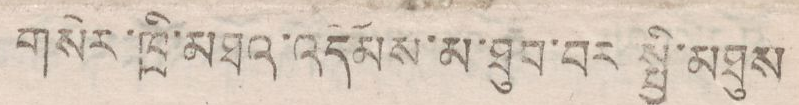གསེར་ཁྲི་མཐའ་འདོམས་མ་ཐུབ་པར སྤྱི་འཐུས
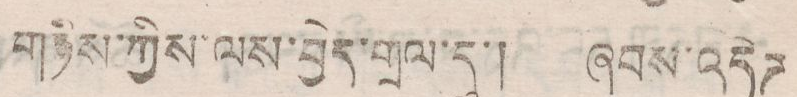གཉིས་ཀྱིས་ལས་བྱེད་གྲལ་དུ་། ཞབས་འདེཌ
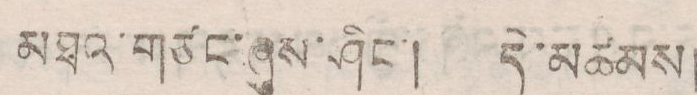མཐའ་གཙང་ཞུས་ཤིང་། དེ་མཚམས།
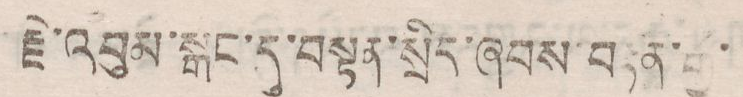རྗེ་འབུམ་སྒང་དུ་བསྟན་སྲིད་ཞབས་བརྟན་རྒྱ་
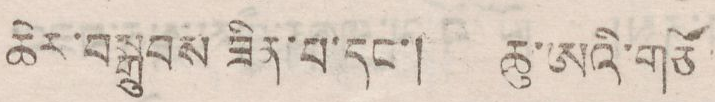ཆེར་བསྒྲུབས ཟིན་པ་དང་། ཆུ་ཨའི་གཙོ
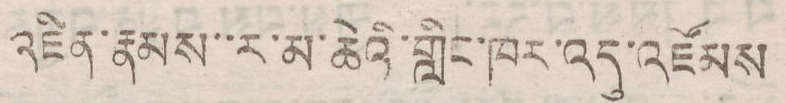འཛིན་རྣམས་་ར་མ་ཆེའི་གླིང་ཁར་འདུ་འཛོམས
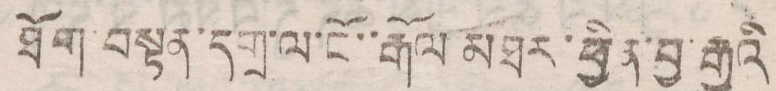ཐོག་བསྟན་དགྲ་ལ་ངོ་་རྒོལ མཐར་ཕྱིན་བྱ་རྒྱུའི
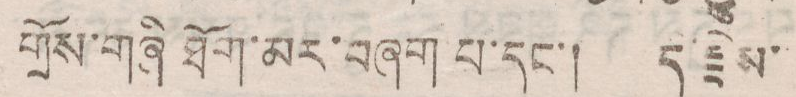གྲོས་གཞི ཐོག་མར་བཞག པ་དང་། ད་རྗེས་
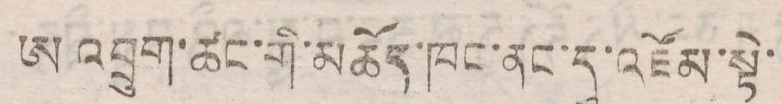ཨ འབྲུག་ཚང་གི་མཆོད་ཁང་ནང་དུ་འཛོམ་སྟེ་
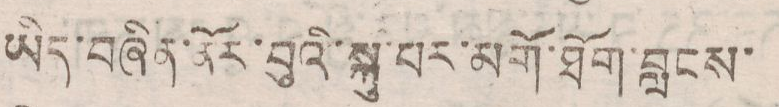ཡོད་བཞིན་ནོར་བུའི་སྐུ་པར་མགོ་ཐོག་བླངས་
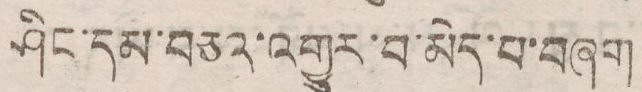ཤིང་དམ་བཅའ་འགྱུར་བ་མེད་པ་བཞག
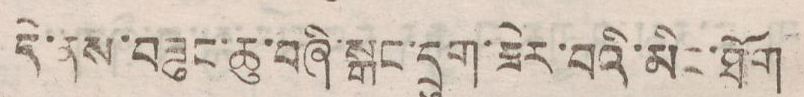དེ་ནས་བཟུང་ཆུ་བཞི་སྒང་དྲུག་ཟེར་བའི་མིང་ཐོག
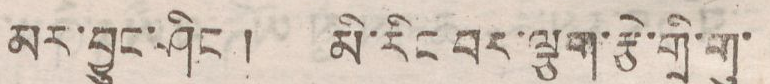མར་བྱུང་ཤིང ། མི་རིང བར་ལྕག་རྩེ་གྲི་གུ་
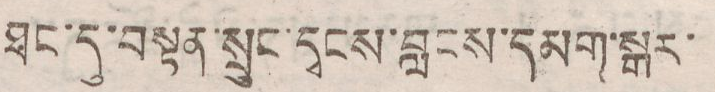ཐང་དུ་བསྟན་སྲུང་དྭངས་བླངས་དམག་སྒར་
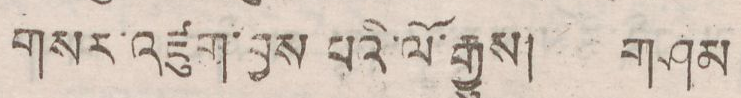གསར་འཛུག་བྱས པའི་ལོ་རྒྱུས། གཤམ
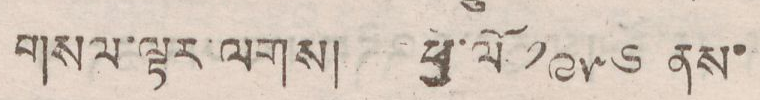གསལ་ལྟར་ལགས། ཕྱི་ལོ ༡༩༥༦ ནས་
